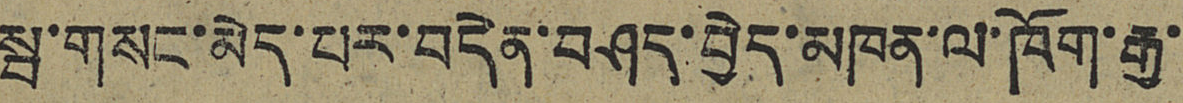སྦ་གསང་མེད་པར་བདེན་བཤད་བྱེད་མཁན་ལ་ཁོག་རྒྱ་
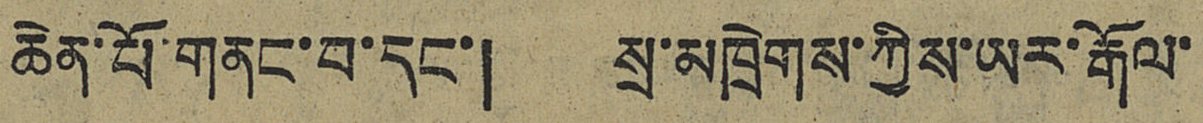ཆེན་པོ་གནང་བ་དང་། སྲ་མཁྲེགས་ཀྱིས་ཡར་རྒོལ་
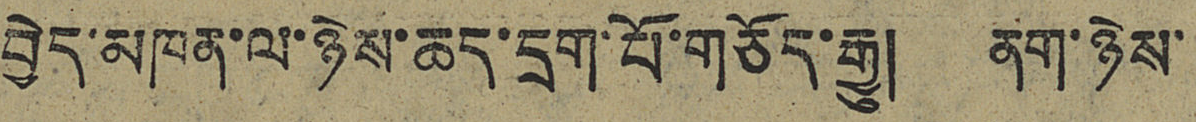བྱེད་མཁན་ལ་ཉེས་ཆད་དྲག་པོ་གཅོད་རྒྱུ། ནག་ཉེས་
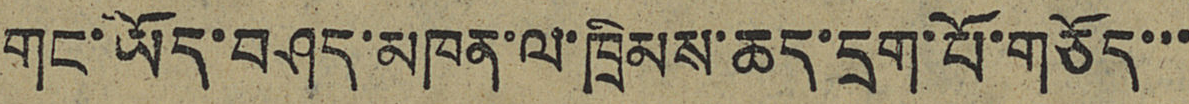གང་ཡོད་བཤད་མཁན་ལ་ཁྲིམས་ཆད་དྲག་པོ་གཅོད་་་
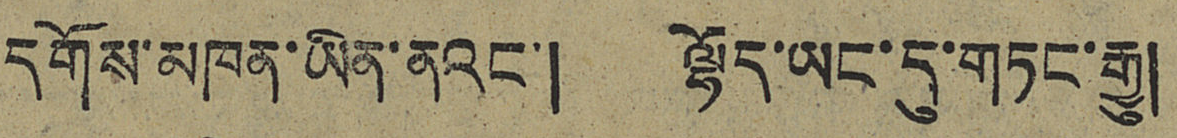དགོས་མཁན་ཡིན་ནའང་། ལྷོད་ཡང་དུ་གཏང་རྒྱུ།
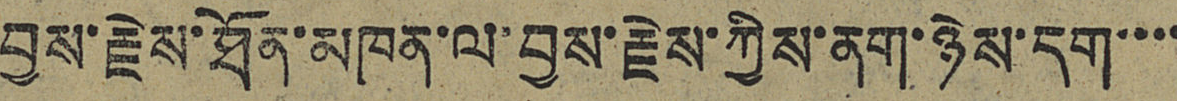བྱས་རྗེས་ཐོན་མཁན་ལ་བྱས་རྗེས་ཀྱིས་ནག་ཉེས་དག་་་་
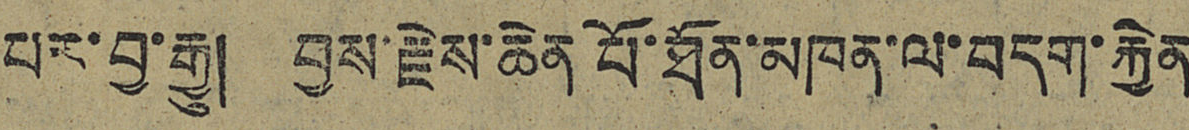པར་བྱ་རྒྱུ། བྱས་རྗེས་ཆེན་པོ་ཐོན་མཁན་ལ་བདག་རྐྱེན
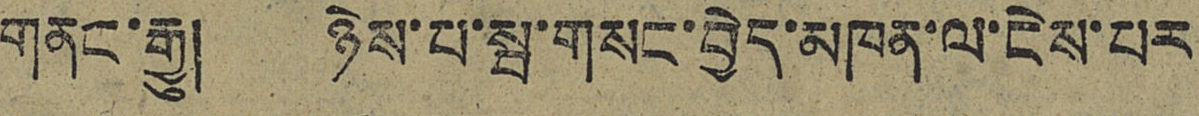གནང་རྒྱུ། ཉེས་པ་སྦ་གསང་བྱེད་མཁན་ལ་ངེས་པར
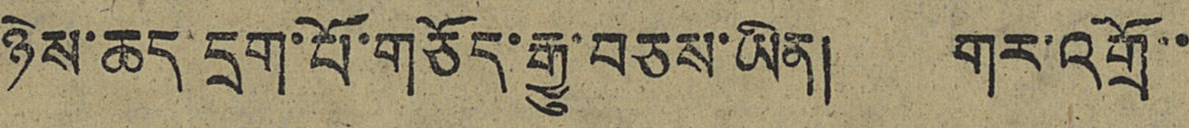ཉེས་ཆད་དྲག་པོ་གཅོད་རྒྱུ་བཅས་ཡིན། གར་འགྲོ་་
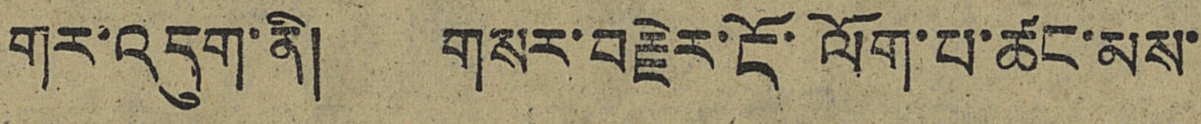གར་འདུག་ནི། གསར་བརྗེར་ངོ་ལོག་པ་ཚང་མས་
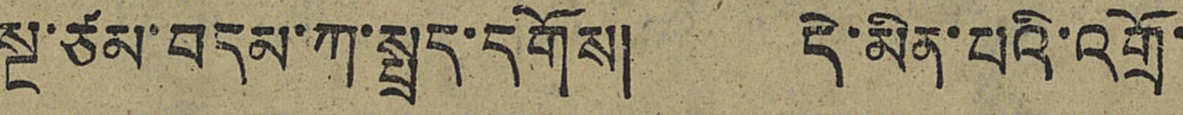སྔ་ཙམ་བདམ་ཀ་སྤྲད་དགོས། དེ་མིན་པའི་འགྲོ་
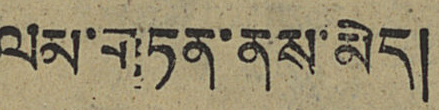ལམ་གཏན་ནས་མེད།
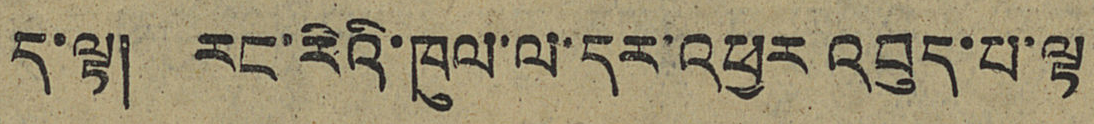ད་ལྟ། རང་རེའི་ཁུལ་ལ་དར་འཕྱར་འབུད་པ་ལྟ
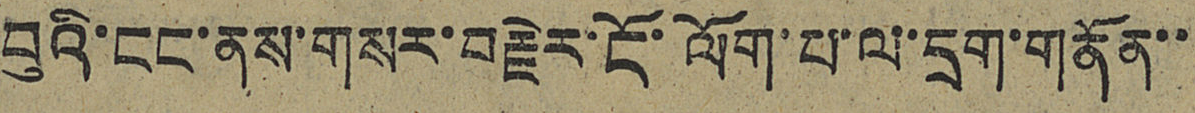བུའི་ངང་ནས་གསར་བརྗེར་ངོ་ལོག་པ་ལ་དྲག་གནོན་་
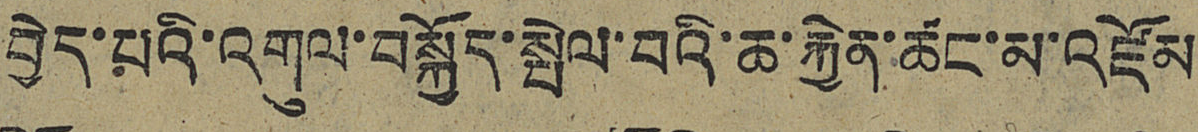བྱེད་པའི་འགུལ་བསྐྱོད་སྤེལ་བའི་ཆ་རྐྱེན་ཚང་མ་འཛོམ
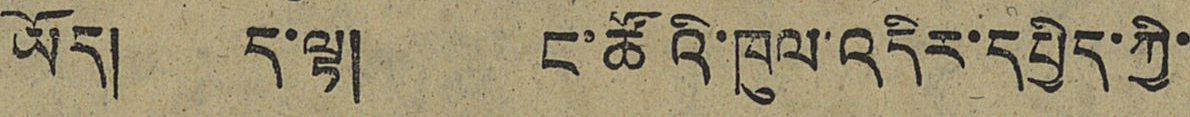ཡོད། ད་ལྟ། ང་ཚོའི་ཁུལ་འདིར་དཔྱིད་ཀྱི་
